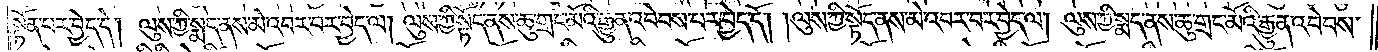སྟོན་པར་བྱེད་དེ། །ལུས་ཀྱི་སྨད་ནས་མེ་འབར་བར་བྱེད་ལ། །ལུས་ཀྱི་སྟོད་ནས་ཆུ་གྲང་མོའི་རྒྱུན་འབེབས་པར་བྱེད་དོ། །ལུས་ཀྱི་སྟོད་ནས་མེ་འབར་བར་བྱེད་ལ། །ལུས་ཀྱི་སྨད་ནས་ཆུ་གྲང་མོའི་རྒྱུན་འབེབས་
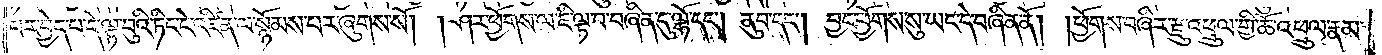པར་བྱེད་པ་དེ་ལྟ་བུའི་ཏིང་ངེ་འཛིན་ལ་སྙོམས་པར་ཞུགས་སོ། །ཤར་ཕྱོགས་ལ་ཇི་ལྟ་བ་བཞིན་དུ་ལྷོ་དང༌། ནུབ་དང༌། བྱང་ཕྱོགས་སུ་ཡང་དེ་བཞིན་ནོ། །ཕྱོགས་བཞིར་རྫུ་འཕྲུལ་གྱི་ཆོ་འཕྲུལ་རྣམ་
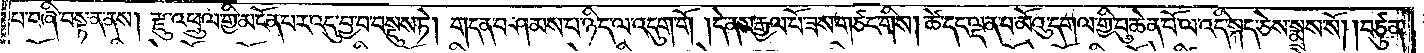པ་བཞི་བསྟན་ནས། །རྫུ་འཕྲུལ་གྱི་མངོན་པར་འདུ་བྱས་པ་བསྡུས་ཏེ། གདན་བཤམས་པ་ཉིད་ལ་འདུག་གོ །དེ་ནས་རྒྱལ་པོ་ཟས་གཙང་གིས། ཚེ་དང་ལྡན་པ་མོའུ་དགལ་གྱི་བུ་ཆེན་པོ་ལ་འདི་སྐད་ཅེས་སྨྲས་སོ། །བཙུན་
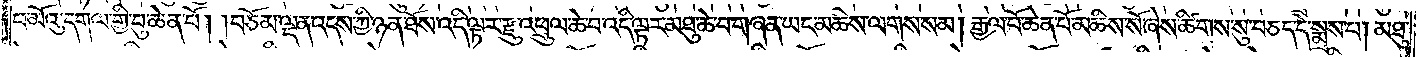པ་མོའུ་དགལ་གྱི་བུ་ཆེན་པོ། །བཅོམ་ལྡན་འདས་ཀྱིས་ཉན་ཐོས་འདི་ལྟར་རྫུ་འཕྲུལ་ཆེ་བ་འདི་ལྟར་མཐུ་ཆེ་བ་གཞན་ཡང་མཆིས་ལགས་སམ། རྒྱལ་པོ་ཆེན་པོ་མཆིས་སོ་ཞེས་ཚིགས་སུ་བཅད་དེ་སྨྲས་པ། མཐུ་
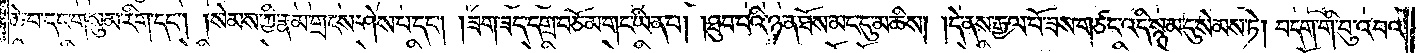ཆེ་བ་དང་གསུམ་རིག་དང༌། །སེམས་ཀྱི་རྣམ་གྲངས་ཤེས་པ་དང༌། །ཟག་ཟད་དགྲ་བཅོམ་པ་གང་ཡིན་པ། །ཐུབ་པའི་ཉན་ཐོས་མང་དུ་མཆིས། །དེ་ནས་རྒྱལ་པོ་ཟས་གཙང་འདི་སྙམ་དུ་སེམས་ཏེ། བདག་གི་བུ་འབའ་
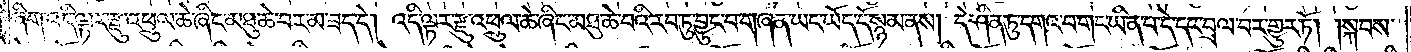ཞིག་འདི་ལྟར་རྫུ་འཕྲུལ་ཆེ་ཞིང་མཐུ་ཆེ་བར་མ་ཟད་དེ། འདི་ལྟར་རྫུ་འཕྲུལ་ཆེ་ཞིང་མཐུ་ཆེ་བའི་རབ་ཏུ་བྱུང་བ་གཞན་ཡང་ཡོད་དོ་སྙམ་ནས། དེ་ཤིན་ཏུ་དགའ་བ་གང་ཡིན་པ་དེ་དང་བྲལ་བར་གྱུར་ཏེ། སྐབས་
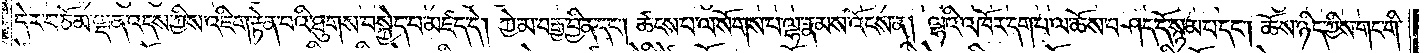དེར་བཅོམ་ལྡན་འདས་ཀྱིས་འཇིག་རྟེན་པའི་ཐུགས་བསྐྱེད་པ་མཛད་དེ། ཀྱེ་མ་བརྒྱ་བྱིན་དང༌། ཚངས་པ་ལ་སོགས་པ་ལྷ་རྣམས་འོངས་ན། ལྷའི་འཁོར་དག་པ་ལ་ཆོས་བཤད་དོ་སྙམ་པ་དང༌། ཆོས་ཉིད་ཀྱིས་གང་གི་
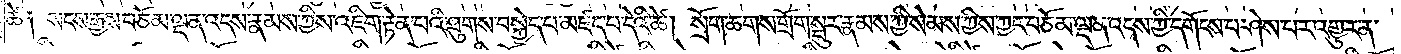ཚེ༑ སངས་རྒྱས་བཅོམ་ལྡན་འདས་རྣམས་ཀྱིས་འཇིག་རྟེན་པའི་ཐུགས་བསྐྱེད་པ་མཛད་པ་དེའི་ཚེ། སྲོག་ཆགས་གྲོག་སྦུར་རྣམས་ཀྱི་སེམས་ཀྱིས་ཀྱང་བཅོམ་ལྡན་འདས་ཀྱི་དགོངས་པ་ཤེས་པར་འགྱུར་ན་
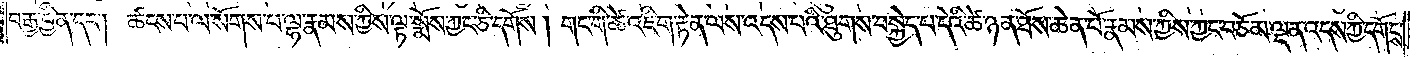བརྒྱ་བྱིན་དང༌། ཚངས་པ་ལ་སོགས་པ་ལྷ་རྣམས་ཀྱིས་ལྟ་སྨོས་ཀྱང་ཅི་དགོས། །གང་གི་ཚེ་འཇིག་རྟེན་ལས་འདས་པའི་ཐུགས་བསྐྱེད་པ་དེའི་ཚེ་ཉན་ཐོས་ཆེན་པོ་རྣམས་ཀྱིས་ཀྱང་བཅོམ་ལྡན་འདས་ཀྱི་དགོངས་
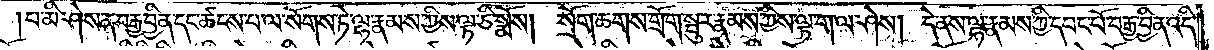པ་མི་ཤེས་ན་བརྒྱ་བྱིན་དང་ཚངས་པ་ལ་སོགས་ཏེ་ལྷ་རྣམས་ཀྱིས་ལྟ་ཅི་སྨོས། །སྲོག་ཆགས་གྲོག་སྦུར་རྣམས་ཀྱིས་ལྟ་ག་ལ་ཤེས། །དེ་ནས་ལྷ་རྣམས་ཀྱི་དབང་པོ་བརྒྱ་བྱིན་འདི་
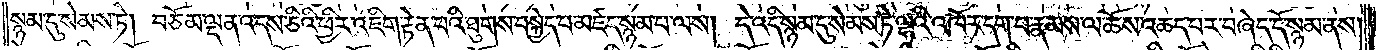སྙམ་དུ་སེམས་ཏེ། བཅོམ་ལྡན་འདས་ཅིའི་ཕྱིར་འཇིག་རྟེན་པའི་ཐུགས་བསྐྱེད་པ་མཛད་སྙམ་པ་ལས། དེ་འདི་སྙམ་དུ་སེམས་ཏེ་ལྷའི་འཁོར་དག་པ་རྣམས་ལ་ཆོས་འཆད་པར་བཞེད་དོ་སྙམ་ནས།
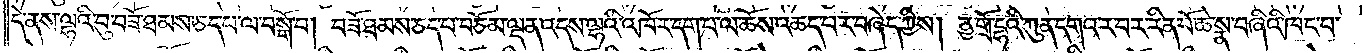དེ་ནས་ལྷའི་བུ་བཟོ་ཐམས་ཅད་པ་ལ་བསྒོ་བ། བཟོ་ཐམས་ཅད་པ་བཅོམ་ལྡན་འདས་ལྷའི་འཁོར་དག་པ་ལ་ཆོས་འཆད་པར་བཞེད་ཀྱིས། ནྱ་གྲོ་དྷའི་ཀུན་དགའ་ར་བར་རིན་པོ་ཆེ་སྣ་བ་བཞིའི་ཁང་པ་
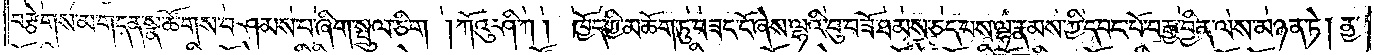བརྩེགས་མ་གདན་སྣ་ཚོགས་བཤམས་པ་ཞིག་སྤྲུལ་ཅིག །ཀོའུ་ཤི་ཀ། ཁྱོད་ཀྱི་མཆོག་ཏུ་བཟང་ངོ་ཞེས་ལྷའི་བུ་བཟོ་ཐམས་ཅད་པས་ལྷ་རྣམས་ཀྱིས་དབང་པོ་བརྒྱ་བྱིན་ལས་མཉན་ཏེ། ནྱ་
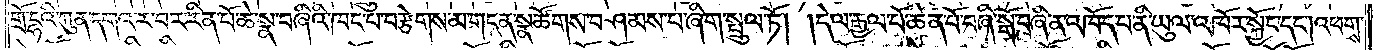གྲོ་དྷའི་ཀུན་དགའ་ར་བར་རིན་པོ་ཆེ་སྣ་བཞིའི་ཁང་པ་བརྩེགས་མ་གདན་སྣ་ཚོགས་བཤམས་པ་ཞིག་སྤྲུལ་ཏོ། དེ་ལ་རྒྱལ་པོ་ཆེན་པོ་བཞི་སྒོ་བཞིན་ན་འཁོད་པ་ནི་ཡུལ་འཁོར་སྐྱོང་དང༌། འཕགས་
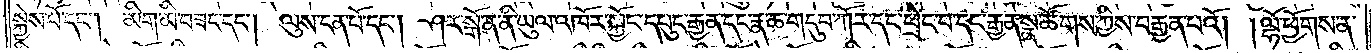སྐྱེས་པོ་དང༌། །མིག་མི་བཟང་དང༌། ལུས་ངན་པོ་དང༌། ཤར་སྒོ་ན་ནི་ཡུལ་འཁོར་སྐྱོང་དཔུང་རྒྱན་དང་རྣ་ཆ་གདུབ་སྐོར་དང་ཕྲེང་བ་དང་རྒྱན་སྣ་ཚོགས་ཀྱིས་བརྒྱན་པའོ། །ལྷོ་ཕྱོགས་ན་
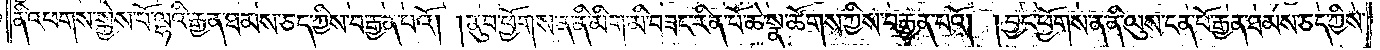ནི་འཕགས་སྐྱེས་པོ་ལྷའི་བརྒྱན་ཐམས་ཅད་ཀྱིས་བརྒྱན་པའོ། །ནུབ་ཕྱོགས་ན་ནི་མིག་མི་བཟང་རིན་པོ་ཆེ་སྣ་ཚོགས་ཀྱིས་བརྒྱན་པའོ། །བྱང་ཕྱོགས་ན་ནི་ལུས་ངན་པོ་རྒྱན་ཐམས་ཅད་ཀྱིས་
